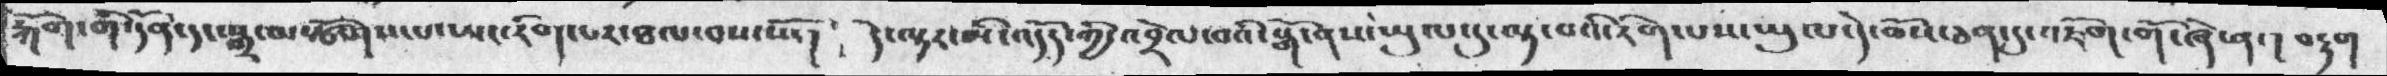རྐོག་གི་དོན་དང་སྒྲ་མ་སྩོགས་པ་ཡང་རིག་པར་ཐལ་བས་སོ་།  དེ་ལྟར་མི་འདོད་ཀྱི་འབྲེལ་བའི་སྒོ་ནས་ཡུལ་དུ་ལྟ་བའི་རིག་པས་ཡུལ་དེ་ཆོས་ཅན་དུ་འཇོག་གོ་ཞེ་ན་། བརྟག
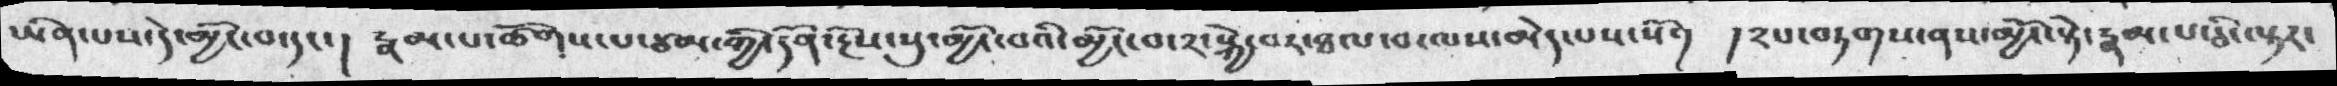ཡིན་པས་དེ་མྱོང་བ་དང་།  རྣམ་པ་ཚོགས་པ་ཙམ་ཀྱི་དོན་རྔོས་སུ་མྱོང་བ་༢་སྐྱེ་བར་ཐལ་བ་ལས་མེད་པས་སོ་།  །༢པ་བཏགས་ནས་མྱོང་སྟེ་རྣམ་པ་ཅི་ལྟར་
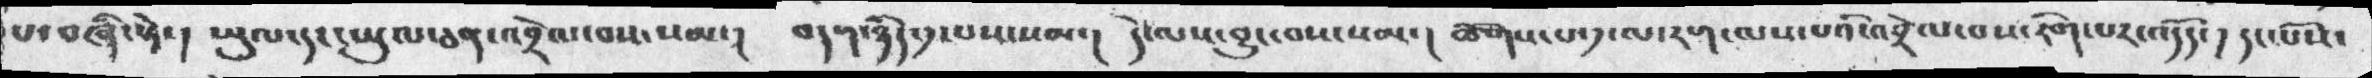པ་བཞི་སྟེ་། ཡུལ་དང་ཡུལ་ཅན་འབྲེལ་བས་སམ་།  བདག་ཉིད་༡་པས་སམ་། དེ་ལས་བྱུང་བས་སམ་།  ཚོགས་པ་༡་ལ་རག་ལས་པའི་འབྲེལ་བས་རིག་པར་འདོད་། དང་པོས་
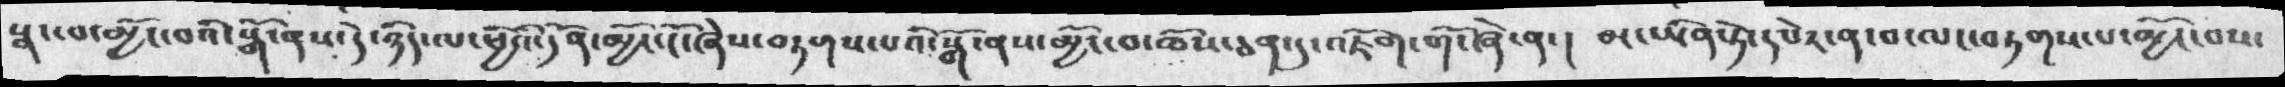སྣང་བ་མྱོང་བའི་སྒོ་ནས་དེ་ཉིད་ལ་ཕྱིའི་དོན་མྱོང་ངོ་ཞེས་བཏགས་པའི་སྒོ་ནས་མྱོང་བ་ཆོས་ཅན་དུ་འཇོག་གོ་ཞེ་ན་།  མ་ཡིན་ཏེ་དཔེར་ན་བ་ལང་བཏགས་པ་མྱོང་བས་
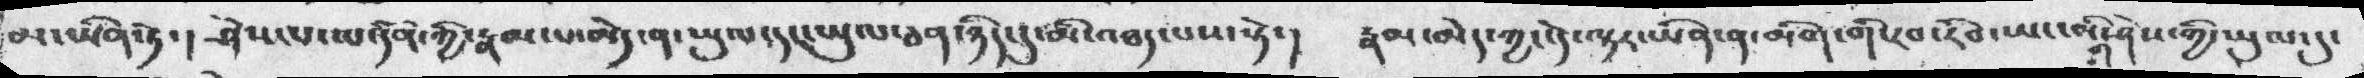མ་ཡིན་ཏེ་། ཤེས་པ་ལ་དོན་ཀྱི་རྣམ་པ་མེད་ན་ཡུལ་དང་ཡུལ་ཅན་ཉིད་དུ་མི་འཐད་པས་སྟེ་།   རྣམ་མེད་ཀྱང་དེ་ལྟར་ཡིན་ན་མིག་གི་རབ་རོབ་ཡང་མིག་ཤེས་གྱི་ཡུལ་དུ་
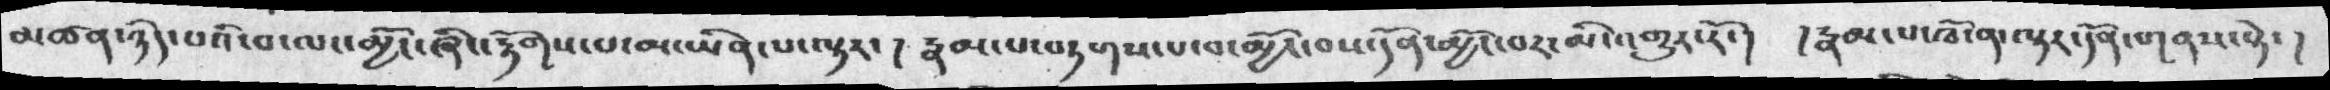མཚན་ཉིད་པའི་བ་ལང་མྱོང་ཞིང་རྟོགས་པ་མ་ཡིན་པ་ལྟར་།  རྣམ་པ་བཏགས་པ་བ་མྱོང་བས་དོན་མྱོང་བར་མི་འགྱུར་རོ་།  །རྣམ་པ་ཁོ་ན་ལྟར་དོན་གནས་སྟེ་།
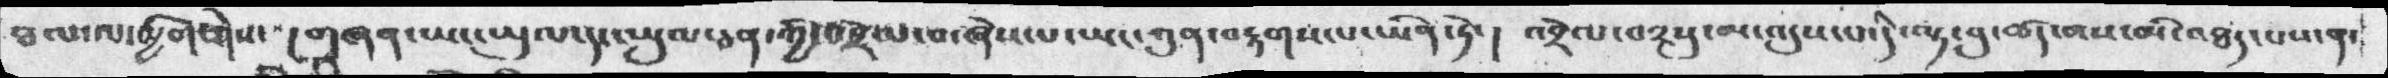ཐལ་ལ་མྱིག་གེས་  ། གཞན་ཡང་ཡུལ་དང་ཡུལ་ཅན་ཀྱི་འབྲེལ་བ་ཞེས་པ་ཡང་ཀུན་བརྟགས་ཡིན་ཏེ་།  འབྲེལ་བ༢སུ་མ་འདུས་པ་དེ་ལྟ་བུ་ཚད་མས་མི་འཐད་པས་ན་
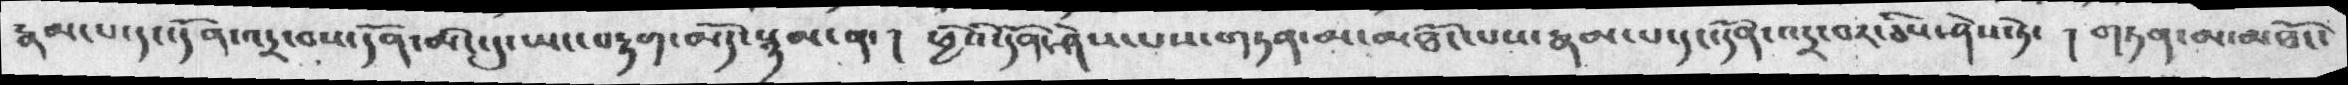རྣམ་པ་དང་དོན་འདྲ་བས་དོན་མིང་དུ་ཡང་བརྟག་མེད་སྙམ་ན་།  ཕྱིའི་དོན་ཤེས་པས་གཏན་མ་མཐོང་པས་རྣམ་པ་དང་རང་དོན་འདྲ་བར་ཅིས་ཤེས་ཏེ་། གཏན་མ་མཐོང་
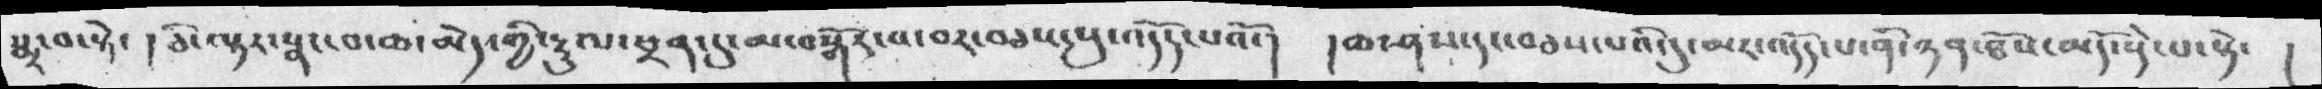སྨྲ་བ་སྟེ་ ། ཅི་ལྟར་སྣང་བ་ཆ་མེད་གྱི་རྡུལ་ཕྲན་དུ་མ་བསྒོར་པ་བར་མས་སུ་འདོད་པའོ་།  །ཆ་ཤས་དང་བཅས་པའི་དུ་མར་འདོད་པ་ནི་ཉན་ཐོས་མདོ་སྡེ་པ་སྟེ་  །
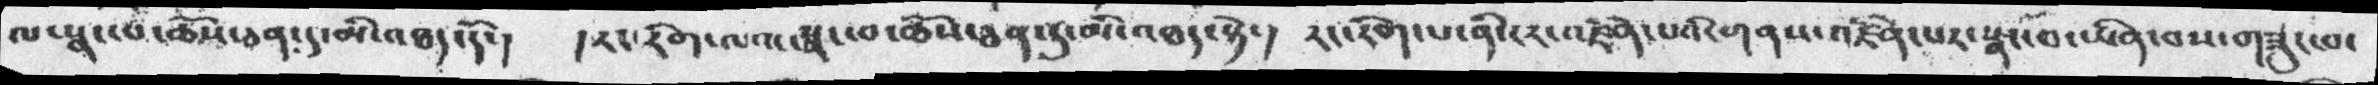ལ་སྣང་པ་ཆོས་ཅན་དུ་མི་འཐད་དོ་།  །རང་རིག་ལའང་སྣང་བ་ཆོས་ཅན་དུ་མི་འཐད་སྟེ་།  རང་རིག་པ་ནི་རང་འཛིན་པའི་གནས་འཛིན་པར་སྣང་བ་ཡིན་བས་གཟུང་བ་
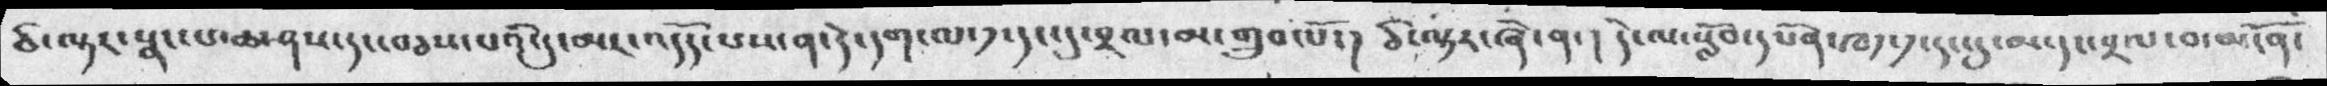ཅི་ལྟར་སྣང་པ་ཆ་ཤས་དང་བཅས་པའི་དུ་མར་འདོད་པས་ན་དེ་དག་ལ་༡་དང་དུ་བྲལ་མ་གྲུབ་པོ་།  ཅི་ལྟར་ཞེ་ན་། དེ་ལ་སློབ་དཔོན་ཁ༡་༡་དང་དུ་མ་དང་བྲལ་བ་མངོན་
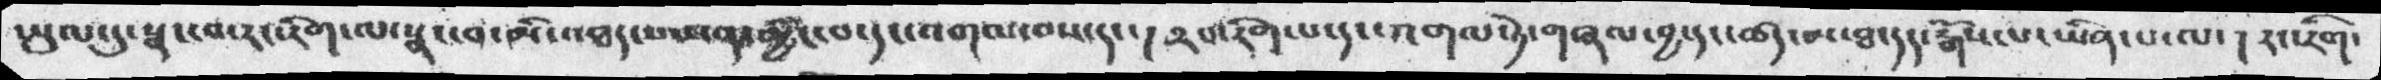ཡུལ་དུ་སྣང་བ་རང་རིག་ལ་སྣང་བ་མི་འཐད་པས་ན་མྱོང་བ་དང་འགལ་བས་དང་། ༢པ་རིག་པ་དང་འགལ་ཏེ་གཞལ་བྱ་དང་ཚད་མ་ཐ་དད་རྒོས་པ་ཡིན་པ་ལ་། རང་རིག་
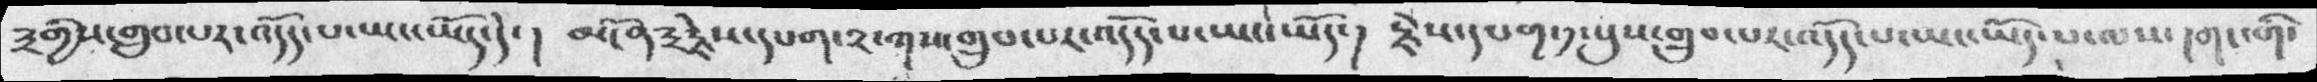༣གྱིས་གྲུབ་པར་འདོད་པ་ཡང་ཡོད་དེ་།  མངོན༣རྗེས་དཔག་༢་ཀས་གྲུབ་པར་འདོད་པ་ཡང་ཡོད་།  རྗེས་དཔག་༡་སུས་གྲུབ་པར་འདོད་པ་ཡང་ཡོད་པ་ལས་། གང་གི་
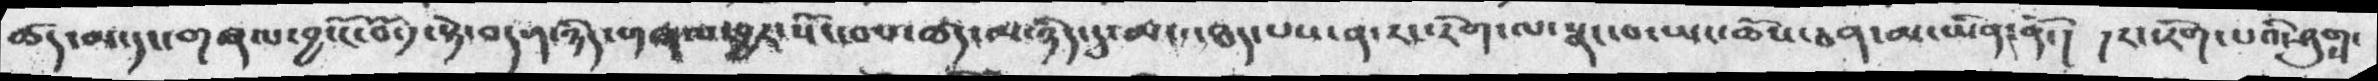ཚད་མ་དངད་གཞལ་བྱ་ངོ་བོ་༡་སྟེ་བདག་ཉིད་གཞལ་བྱར་སོང་བས་ཚད་མ་ཉི་ད་དུ་མི་འཐད་པས་ན་རང་རིག་ལ་སྣང་བ་ཡང་ཆོས་ཅན་མ་ཡིན་ནོ་།   །རང་རིག་པའི་ཤུགས་
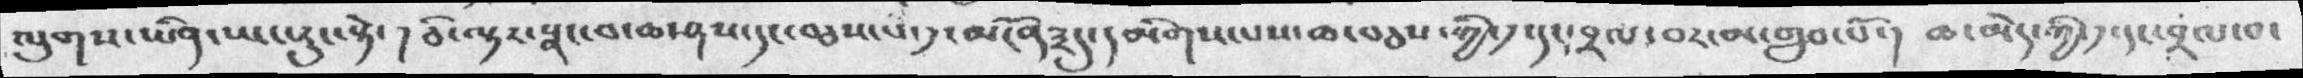ལུགས་ཡིན་ཡང་རུང་སྟེ་། ཅི་ལྟར་སྣང་བ་ཆ་ཤས་དང་བཅས་པ་༡་མངོན༣དུ་དམིགས་པས་ཆ་བཅས་ཀྱི་༡་དང་བྲལ་བར་མ་གྲུབ་པོ་། ཆ་མེད་ཀྱི་༡་དང་བྲལ་བ་
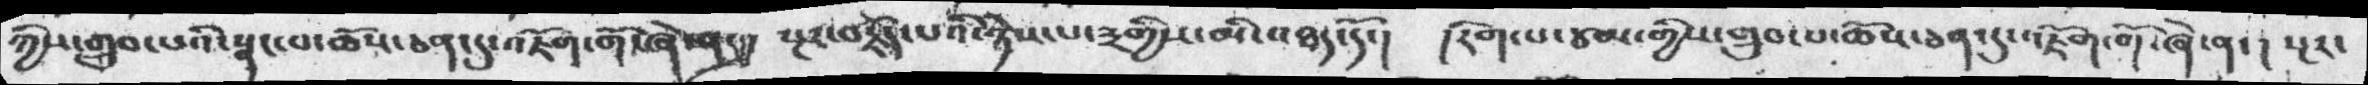ཀྱིས་གྲུབ་པའི་སྣང་པ་ཆོས་ཅན་དུ་འཇོག་གོ་ཞེ་ན་།  སྔར་བརྗོད་པའི་ཉེས་པ་༣གྱིས་མི་འཐད་དོ་།  །རིག་པ་ཙམ་གྱིས་གྲུབ་པ་ཆོས་ཅན་དུ་འཇོག་གོ་ཞེ་ན་། སྔར་
